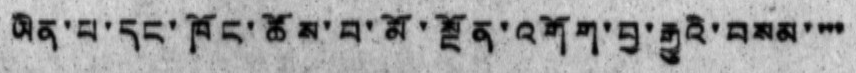ཡིན་པ་དང་ཁོང་ཚོས་བ་མོ་སྔོན་འགོག་བྱ་རྒྱུའི་བསམ་་་་
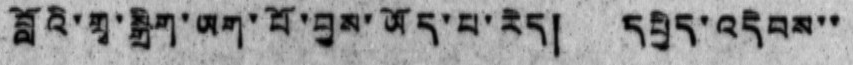བློའི་གྲྭ་སྒྲིག་ཡག་པོ་བྱས་ཡོད་པ་རེད། དཔྱིད་འདེབས་་
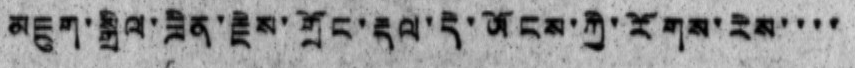མཇུག་སྒྲིལ་ཟིན་རྗེས་གྲོང་རྡལ་དེ་ཡོངས་ཀྱི་རོགས་རེས་་་་
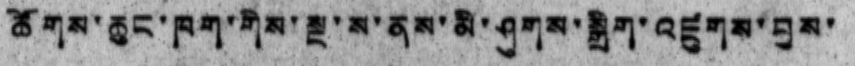ཚོགས་ཆུང་ཁག་གིས་སྔ་ས་ནས་མི་ཤུགས་སྒྲིག་འཛུགས་བྱས་
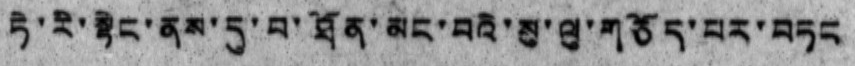ཏེ་རི་སྟེང་ནས་དུ་བ་ཐོན་མང་བའི་སུ་ལུ་གཅོད་པར་བཏང
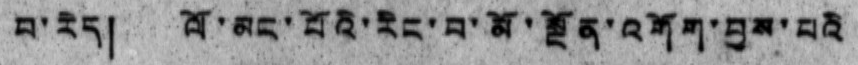བ་རེད། ལོ་མང་པོའི་རིང་བ་མོ་སྔོན་འགོག་བྱས་པའི
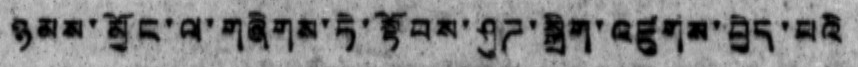ཉམས་མྱོང་ལ་གཞིགས་ཏེ་སྟོབས་ཤུཌ་སྒྲིག་འཛུགས་བྱེད་པའི
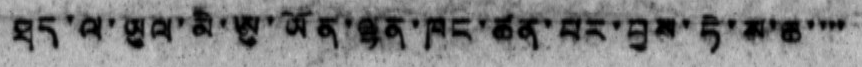ཐད་ལ་ཡུལ་མི་ཨུ་ཡོན་ལྷན་ཁང་ཚན་པར་བྱས་ཏེ་ས་ཆ་་་་
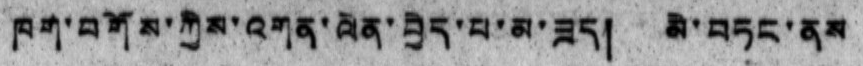ཁག་བགོས་ཀྱིས་འགན་ལེན་བྱེད་པ་མ་ཟད། མེ་བཏང་ནས
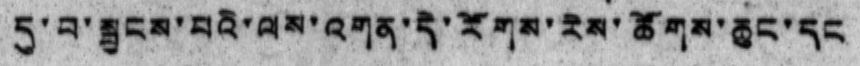དུ་བ་སྦྱངས་པའི་ལས་འགན་དེ་རོགས་རེས་ཚོགས་ཆུང་དང
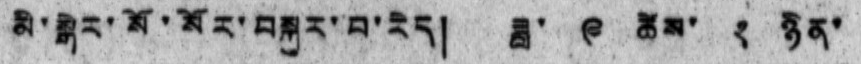མི་སྒེར་སོ་སོར་བསྐུར་བ་རེད། ཟླ་ ༩ ཚེས་ ༢ ཉིན་
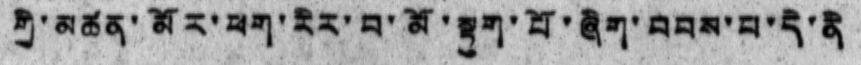གྱི་མཚན་མོར་ཕག་རིར་བ་མོ་སྟུག་པོ་ཞིག་བབས་པ་དེ་ནི
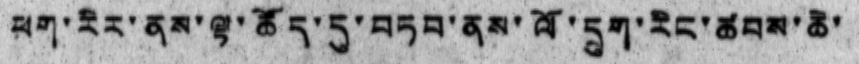ཕག་རིར་ནས་ལྟ་ཚོད་དུ་བཏབ་ནས་ལོ་དྲུག་རིང་ཚབས་ཆེ་
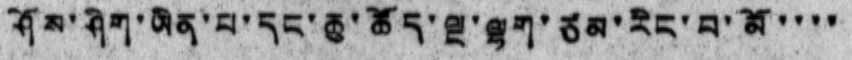ཤོས་ཤིག་ཡིན་པ་དང་ཆུ་ཚོད་ལྔ་ལྷག་ཙམ་རིང་བ་མོ་་་་
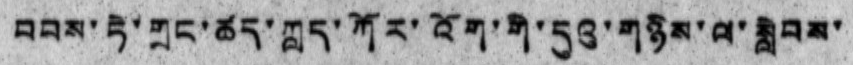བབས་ཏེ་གྲང་ཚད་ཀླད་ཀོར་འོག་གི་དུའུ་གཉིས་ལ་སླེབས་
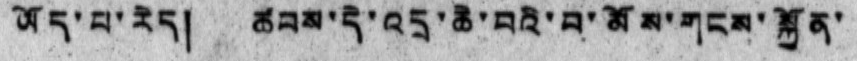ཡོད་པ་རེད། ཚབས་དེ་འདྲ་ཆེ་བའི་བ་མོས་གངས་སྐྱོན་
